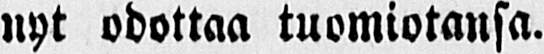nyt odottaa tuomiotansa.
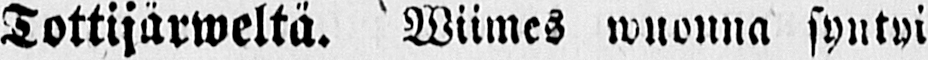Tottijärweltä. Wiimes wuonna syntyi
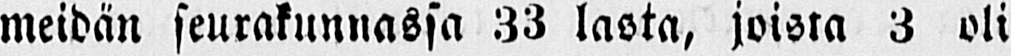meidän seurakunnassa 33 lasta, joista 3 oli
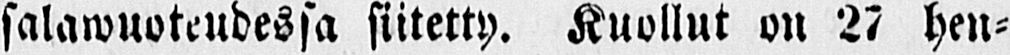salawuoteudessa siitetty. Kuollut on 27 hen-
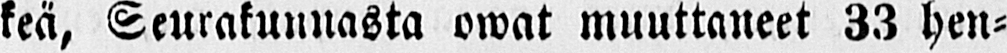keä, Seurakunnasta owat muuttaneet 33 hen-
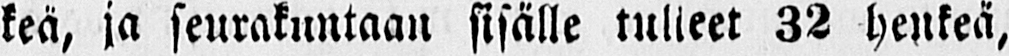keä, ja seurakuntaan sisälle tulleet 32 henkeä,
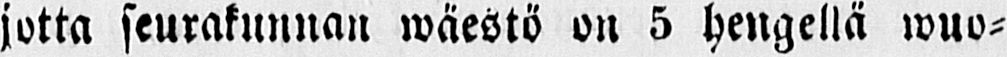jotta seurakunnan wäestö on 5 hengellä wuo-
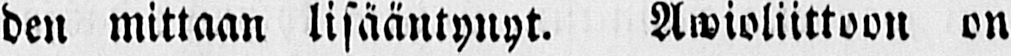den mittaan lisääntynyt. Awioliittoon on
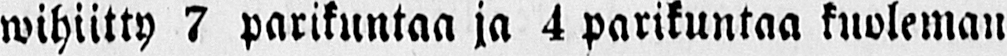wihiitty 7 parikuntaa ja 4 parikuntaa kuoleman
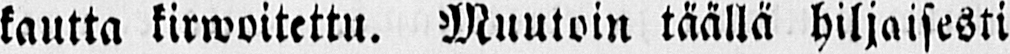kautta kirwoitettu. Muutoin täällä hiljaisesti
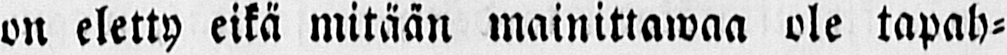on eletty eikä mitään mainittawaa ole tapah-
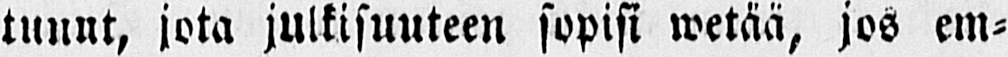tunut, jota julkisuuteen sopisi wetää, jos em-
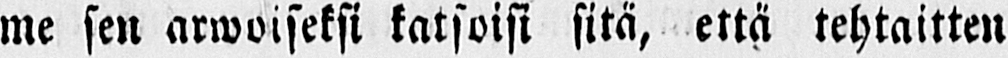me sen arwoiseksi katsoisi sitä, että tehtaitten
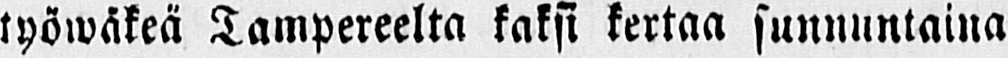työwäkeä Tampereelta kaksi kertaa sunnuntaina
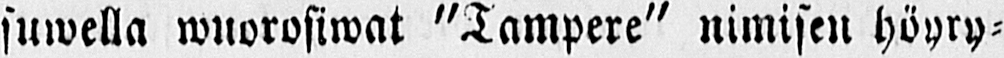suwella wuorosiwat "Tampere" nimisen höyry-
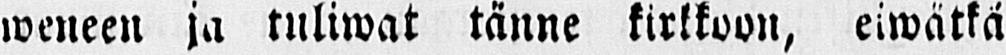weneen ja tuliwat tänne kirkkoon, eiwätkä
